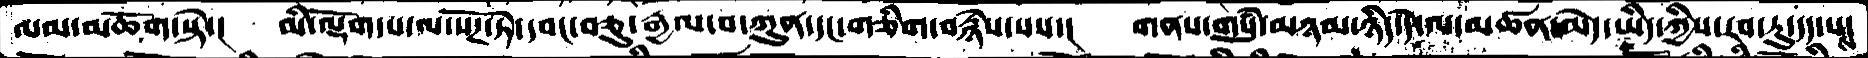ལམ་མཆོགསྟེ་། མི་ལྡོག་པ་ལ་སོཌ་ཏེ་དབང་བཅུ་རྒྱལ་བ་ཀུན་དང་གཅིག་བརྙེས་པས་།  གནས་གསུཾ་མཉམ་ཉིད་དེ་ལ་མཚན་མེད་ཡིད་ཀྱིས་རབ་ཏུ་དད་པས་
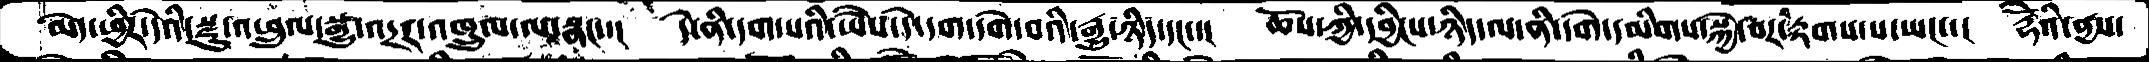མེད་ཕྱིར་དེའི་སྫུ་འཕྲུལ་སྒྱུ་འདྲར་འཁྲུལ་ལ་སྣང་་། དེ་ནི་དག་པའི་ཡཻས་དེ་དག་དགེ་བའི་རྒྱུ་ཉིད་དང་་། ཆོས་ཀྱི་དབྱིངས་ཉིད་ལ་ནི་དགེ་དམིགས་སྐྱེ་བར་བརྟགས་པ་ཡང་་། རྡོེའི་ནྱས་
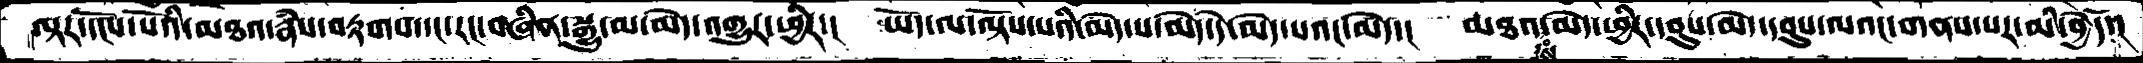ལྟར་དངོས་པོའི་མཐའ་རྣཾས་བརྟགས་དང་རང་བཞིན་སྒྱུ་མ་མེད་འགྱུར་ཕྱིར་།  ཡོད་ལ་ལྟོས་པའི་མེད་པ་མེད་དེ་མེད་པའང་མེད་།  མཐའ་ཚཾས་མེད་ཕྱིར་དབུས་མེད་དབུས་ལའང་གནས་པར་མི་བྱེདོ་།
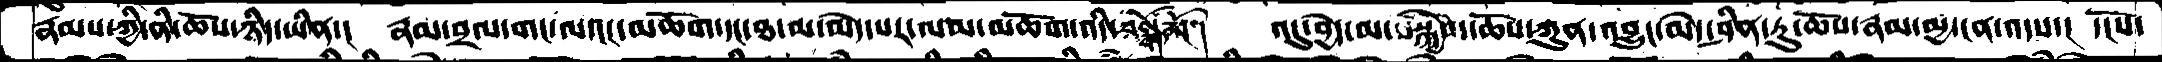རྣམས་ཀྱི་ནི་ཆོས་ཉིད་ཡིན་།  རྣམ་བྲལ་གང་ལའང་མཆོག་དང་ཐ་མ་མེད་པར་ལམ་མཆོག་འདི་བསྒོམོ་།   འདུ་བྱེད་མ་སྐྱེས་ཆོས་ཀུན་འབྱུང་མེད་ཤིན་ཏུ་ཆོས་རྣམ་མྱ་ངན་འདས་། དངོས་
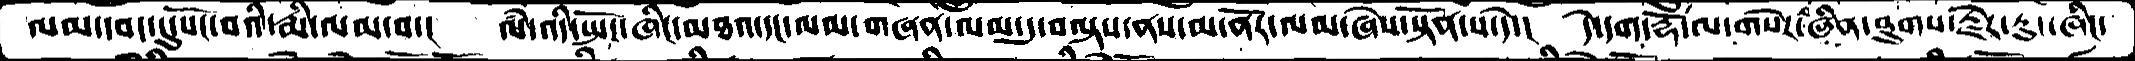ལམ་དབང་དུ་སོང་བའི་རྨི་ལམ་བ་།  ལཾ་འདི་སྤོང་ཞིང་མཐའ་དང་ལམ་གཞན་ལམ་དུ་བལྟས་ནས་མ་ནོར་ལམ་ཞེས་སྟོན་པ་དེ་།  དེ་དག་རྡོེ་ལ་གསེར་བཞིན་ཐུགས་རྗེར་རུང་ཞིང་
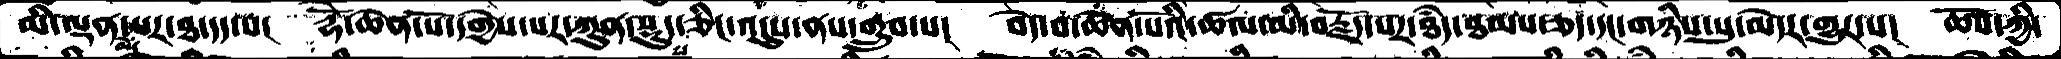མི་ལྡན་མེད་པར་ཐ་དད་པ།  རྡོེ་ཆེན་པོ་དགྱེས་པར་ཀུན་སྡུད་ཅིང་འདུས་ནས་གྲུབ་པ། བདེ་བ་ཆེན་པོའི་ཚལ་མི་བརྗོད་པར་ཐཾད་ཐམས་ཅད་དང་གཉིས་སུ་མེདར་གྱུར་པ།  ཆོས་ཀྱི་
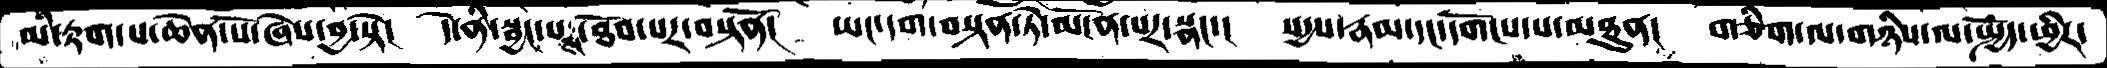མི་རྟག་པ་ཆེན་པོ་ཞེས་བྱ་སྟེ།  དེ་ནི་སྦྱང་པས་ཐོབ་པར་བསྟནོ།  ཡང་དག་བསྟན་ཏེ་མངོན་པར་སྣང་།  སདྱས་རྣམ་དང་དགོངས་པ་མཐུན། གཅིག་ལ་གཉིས་ལ་སྤྱོད་ཕྱིར་
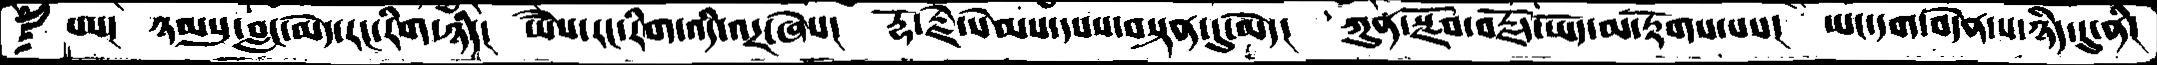པས། ཉམསུ་བླང་མེད་རང་རིག་ཉིད།  ཡཻས་རང་རིག་འདི་འདྲ་ཞེས། རྡོ་རྗེ་སེམས་དཔས་བསྟན་དུ་མེད།  ཀུན་སྫོབ་བརྗོད་ཡོད་མ་རྟོགས་པས། ཡང་དག་བདེན་པ་ཉིད་དུ་ནི།
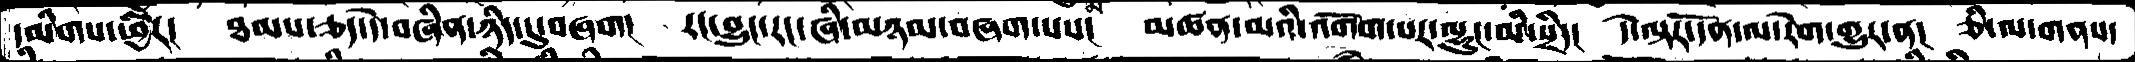དམིགས་ཕྱིར།  ཐམས་ཅད་དེ་བཞིན་ཉིད་དུ་བཞག།  རང་བྱུང་རང་ཞི་མཉམ་བཞག་པས། མཚན་མའི་འགོག་པར་ལྷུང་མི་སྲིད།  དེ་ལྟར་དོན་ལ་རེག་གྱུར་ན།  ཅི་ལ་གནས་
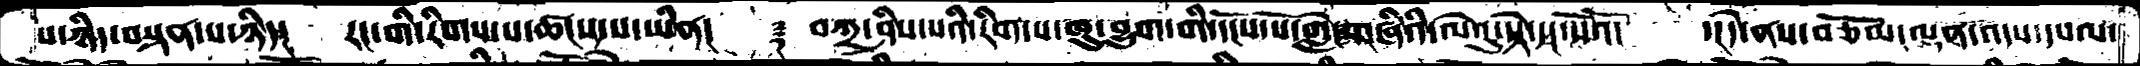པ་ཉིད་བསྟན་པ་ཉིད།  རང་གི་རིགས་པ་ཚངས་པ་ཡིན།  ༈ བཀྲ་ཤིས་པའི་རིག་པ་ཁུ་བྱུག་གི་དངོས་པོ་གླེང་གཞིའི་ལེའུ་སྟེ་དང་པོའོ།   ་།དེ་ནས་བཅོམ་ལྡན་འདས་དཔལ་
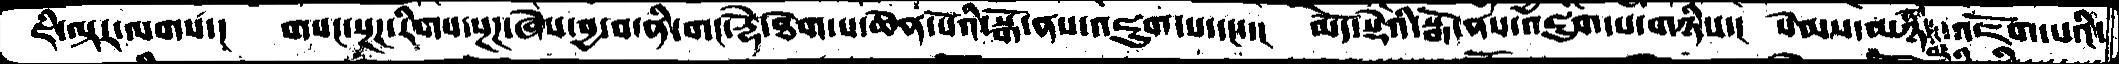ཇི་ལྟར་ལགས་།  གསང་སྔཌ་རིགས་སྔཌ་ཞེས་བྱ་བ་ནི་གང་རྡོེ་ཐེག་པ་ཆེན་པོའི་སྒོ་ནས་འཇུག་པ་དང་་།  མདོ་སྡེའི་སྒོ་ནས་འཇུག་པ་གཉིས་།  སེམས་མཉམ་འཇོག་པའི་
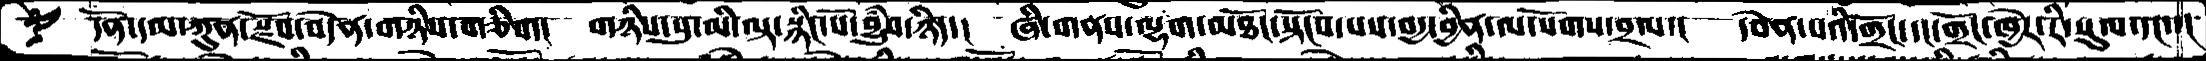དོན་དམ་ཀུ་སྫོབ་བདེན་གཉིས་གཅིག།  གཉིས་སུ་མི་ལྟ་སྙིང་པོ་བྱུཾབ་ཉིད་།  ཞི་གནས་ལྷག་མཐོང་སྟོངས་པས་བདྱ་བྱིན་ལ་སོགས་བྲལ་།  དབེན་པའི་གྲོང་དང་གྲོང་ཁྱེར་རི་སུལ་དང་་།
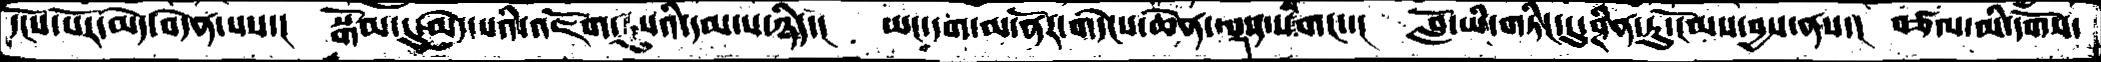དངོས་པོར་མེད་བདེན་པས་།  སྒོམ་དུ་མེད་པའི་འཇོག་པའི་དམ་པ་ཉིད་།  ཡང་དག་མ་ནོར་གདེངས་ཆེན་ལྡན་པས་གང་་།  བློ་ཡི་གཏིང་དུ་ཤིན་ཏུ་ངོམས་བྱས་ནས་།  བཙལ་མི་དགོས་
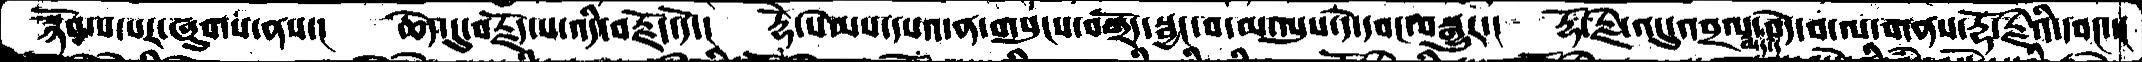སྙོམས་པར་ཞུགས་ནས་།  ཆེད་དུ་བརྗོད་པ་འདི་བརྗོད་དོ་།  རྡོེ་སེམས་དཔའ་ན་གསུངས་བགྲོད་སྦྱང་བ་མ་ལུས་དེ་དབང་བསྒྱུར་།  རྡོ་རྗེ་འདུ་འབྲལ་མེད་དེ་བདེ་བ་ལ་གནས་རྡོ་རྗེའི་དབང་་།
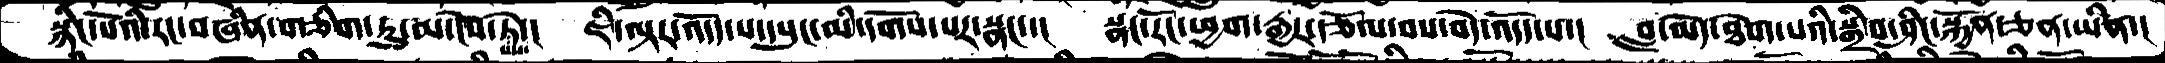སྙིང་པོའི་རང་བཞིན་གཅིག་ཏུ་མ་ངེས་ཏེ་།  ཇི་ལྟར་འདོད་པ་དཔུང་མི་དགོས་པར་སྣང་།  སྣང་རོང་ཕྱག་རྒྱར་རྩོལ་བས་བདེ་འདོད་པ་།  བླ་མེད་ཐེག་པའི་སྒྲིབ་ཤིང་སྐྱོན་ཅན་ཡིན་།
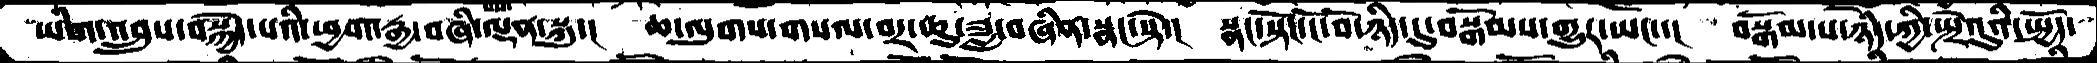ཡིག་འབྲུས་བསྐྱེད་པའི་ཕྱག་རྒྱ་བཞི་ལྡན་སྐུ་།  ཆ་ལུགས་གསལ་བར་ཆུ་ཟླ་བཞིན་སྣང་སྟེ་།  སྣང་སྟོང་ངོ་བོ་ཉིད་དུ་བསྒོམས་གྱུར་ཡང་་། བསྒོམ་པ་ཉིད་ཀྱི་སྤྲེའུའི་སྤྱོད་
